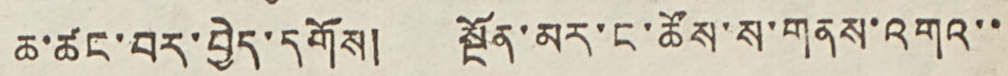ཆ་ཚང་བར་བྱེད་དགོས། སྔོན་མར་ང་ཚོས་ས་གནས་འགའ་་
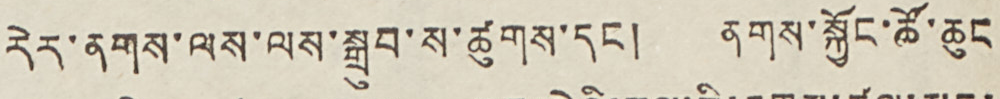རེར་ནགས་ལས་ལས་སྒྲུབ་ས་ཚུགས་དང ། ནགས་སྐྱོང་ཚོ་ཆུང
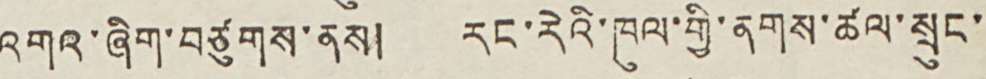འགའ་ཞིག་བཙུགས་ནས། རང་རེའི་ཁུལ་གྱི་ནགས་ཚལ་སྲུང་
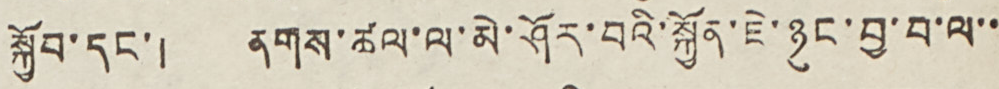སྐྱོབ་དང་། ནགས་ཚལ་ལ་མེ་ཤོར་བའི་སྐྱོན་ཇེ་ཉུང་བྱ་བ་ལ་་
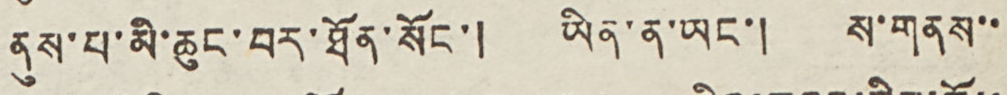ནུས་པ་མི་ཆུང་བར་ཐོན་སོང་། ཡིན་ན་ཡང་། ས་གནས་་
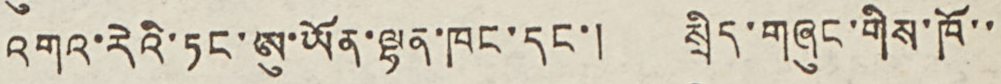འགའ་རེའི་ཏང་ཨུ་ཡོན་ལྷན་ཁང་དང་། སྲིད་གཞུང་གིས་ཁོ་་
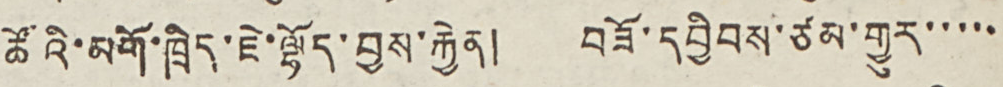ཚོའི་མགོ་ཁྲིད་ཇེ་ལྷོད་བྱས་རྐྱེན། བཟོ་དབྱིབས་ཙམ་གྱུར་་་་་
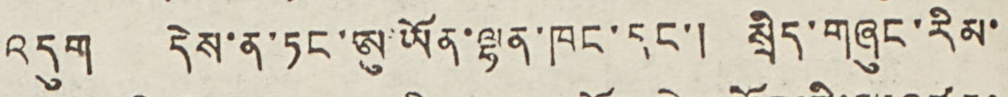འདུག། དེས་ན་ཏང་ཨུ་ཡོན་ལྷན་ཁང་དང་། སྲིད་གཞུང་རིམ་
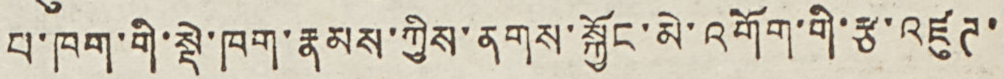པ་ཁག་གི་སྡེ་ཁག་རྣམས་ཀྱིས་ནགས་སྐྱོང་མེ་འགོག་གི་རྩ་འཛུཊ་
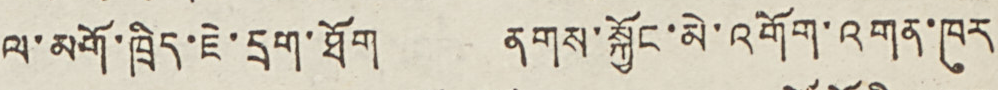ལ་མགོ་ཁྲིད་ཇེ་དྲག་ཐོག ནགས་སྐྱོང་མེ་འགོག་འགན་ཁུར
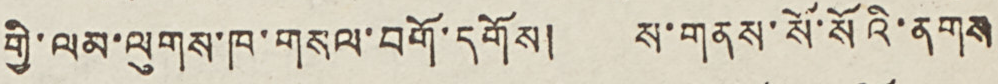གྱི་ལམ་ལུགས་ཁ་གསལ་བགོ་དགོས། ས་གནས་སོ་སོའི་ནགས
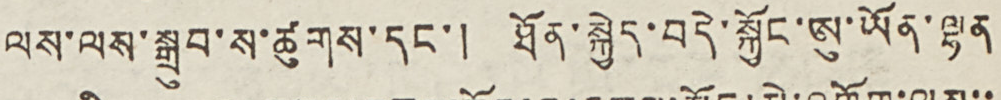ལས་ལས་སྒྲུབ་ས་ཚུགས་དང་། ཐོན་སྐྱེད་བདེ་སྐྱོང་ཨུ་ཡོན་ལྷན
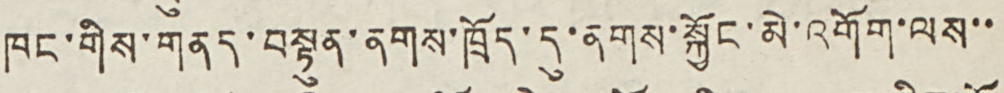ཁང་གིས་གནད་བསྟུན་ནགས་ཁྲོད་དུ་ནགས་སྐྱོང་མེ་འགོག་ལས་་
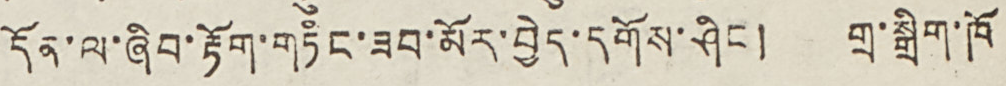དོན་ལ་ཞིབ་རྟོག་གཏིང་ཟབ་མོར་བྱེད་དགོས་ཤིང ། གྲ་སྒྲིག་ཁོ
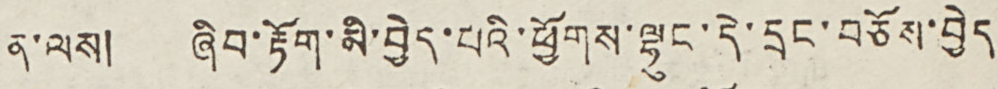ན་ལས། ཞིབ་རྟོག་མི་བྱེད་པའི་ཕྱོགས་ལྷུང་དེ་དྲང་བཅོས་བྱེད
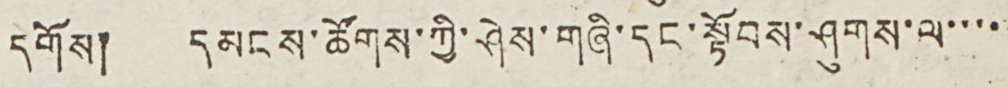དགོས། དམངས་ཚོགས་ཀྱི་ཤེས་གཞི་དང་སྟོབས་ཤུགས་ལ་་་་
